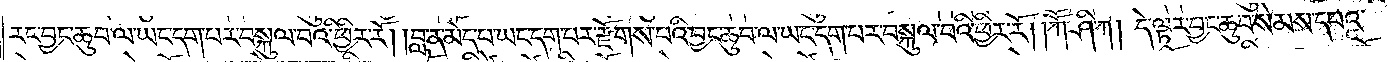རང་བྱང་ཆུབ་ལ་ཡང་དག་པར་བསྐུལ་བའི་ཕྱིར་རོ། །བླ་ན་མེད་པ་ཡང་དག་པར་རྫོགས་པའི་བྱང་ཆུབ་ལ་ཡང་དག་པར་བསྐུལ་བའི་ཕྱིར་རོ། །ཀཽ་ཤི་ཀ། དེ་ལྟར་བྱང་ཆུབ་སེམས་དཔའ་
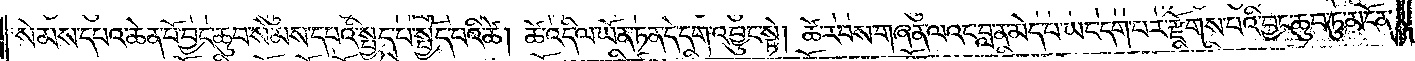སེམས་དཔའ་ཆེན་པོ་བྱང་ཆུབ་སེམས་དཔའི་སྤྱད་པ་སྤྱོད་པའི་ཚེ། ཚེ་འདི་ལ་ཡོན་ཏན་དེ་དག་འབྱུང་སྟེ། ཚེ་རབས་གཞན་ལའང་བླ་ན་མེད་པ་ཡང་དག་པར་རྫོགས་པའི་བྱང་ཆུབ་ཏུ་མངོན་
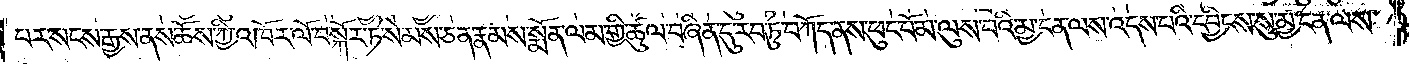པར་རྫོགས་པར་སངས་རྒྱས་ནས་ཆོས་ཀྱི་འཁོར་ལོ་བསྐོར་ཏེ་སེམས་ཅན་རྣམས་སྨོན་ལམ་གྱི་ཚུལ་བཞིན་དུ་རབ་ཏུ་བཀོད་ནས་ཕུང་པོ་མ་ལུས་པའི་མྱ་ངན་ལས་འདས་པའི་དབྱིངས་སུ་མྱ་ངན་ལས་
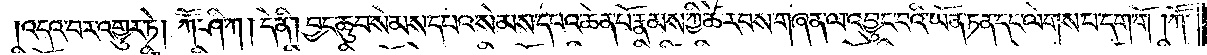འདའ་བར་འགྱུར་ཏེ། ཀཽ་ཤི་ཀ། དེ་ནི། བྱང་ཆུབ་སེམས་དཔའ་སེམས་དཔའ་ཆེན་པོ་རྣམས་ཀྱི་ཚེ་རབས་གཞན་ལ་འབྱུང་བའི་ཡོན་ཏན་དང་ལེགས་པ་དག་གོ །ཀཽ་
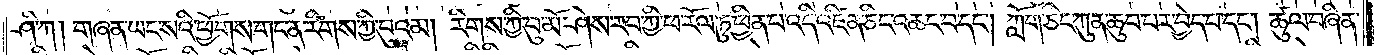ཤི་ཀ། གཞན་ཡང་སའི་ཕྱོགས་གང་ན་རིགས་ཀྱི་བུའམ། རིགས་ཀྱི་བུ་མོ་ཤེས་རབ་ཀྱི་ཕ་རོལ་ཏུ་ཕྱིན་པ་འདི་འཛིན་ཅིང་འཆང་བ་དང༌། ཀློག་ཅིང་ཀུན་ཆུབ་པར་བྱེད་པ་དང༌། ཚུལ་བཞིན་
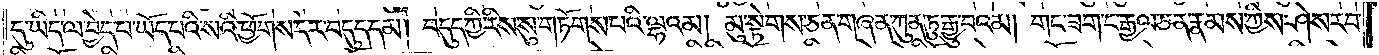དུ་ཡིད་ལ་བྱེད་པ་ཡོད་པའི་སའི་ཕྱོགས་དེར་བདུད་དམ། བདུད་ཀྱི་རིས་སུ་གཏོགས་པའི་ལྷའམ། མུ་སྟེགས་ཅན་གཞན་ཀུན་ཏུ་རྒྱུ་བའམ། གང་ཟག་པ་རྒྱལ་ཅན་རྣམས་ཀྱིས་ཤེས་རབ་
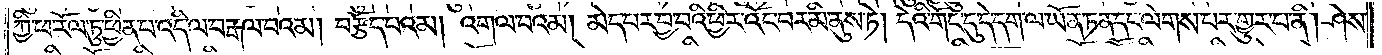ཀྱི་ཕ་རོལ་ཏུ་ཕྱིན་པ་འདི་ལ་བརྒལ་བའམ། བརྩད་པའམ། འགལ་བའམ། མེད་པར་བྱ་བའི་ཕྱིར་འོང་བར་མི་ནུས་ཏེ། དེའི་གོང་དུ་དེ་དག་ལ་ཡོན་ཏན་དང་ལེགས་པར་གྱུར་པ་ནི། ཤེས་
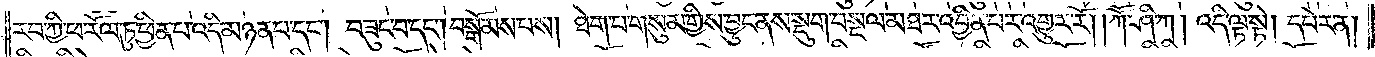རབ་ཀྱི་ཕ་རོལ་ཏུ་ཕྱིན་པ་འདི་མཉན་པ་དང༌། བཟུང་བ་དང༌། བསྒོམས་པས། ཐེག་པ་གསུམ་གྱིས་བྱུང་ནས་སྡུག་བསྔལ་མཐར་འབྱིན་པར་འགྱུར་རོ། །ཀཽ་ཤི་ཀ། འདི་ལྟ་སྟེ། དཔེར་ན།
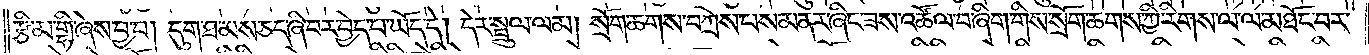རྩི་མ་གྷི་ཞེས་བྱ་བ། དུག་ཐམས་ཅད་ཞི་བར་བྱེད་པ་ཡོད་དེ། དེར་སྦྲུལ་ལམ། སྲོག་ཆགས་བཀྲེས་པས་མནར་ཞིང་ཟས་འཚོལ་བ་ཞིག་གིས་སྲོག་ཆགས་ཀྱི་རིགས་ལ་ལ་མཐོང་བར་
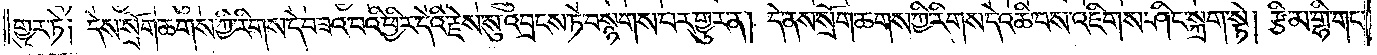གྱུར་ཏེ། དེས་སྲོག་ཆགས་ཀྱི་རིགས་དེ་བཟའ་བའི་ཕྱིར་དེའི་རྗེས་སུ་འབྲངས་ཏེ་བསྙགས་པར་གྱུར་ན། དེ་ནས་སྲོག་ཆགས་ཀྱི་རིགས་དེ་འཆི་བས་འཇིགས་ཤིང་སྐྲག་སྟེ། རྩི་མ་གྷི་གང་
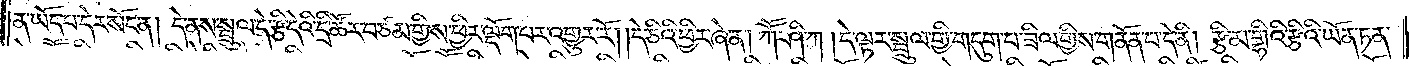ན་ཡོད་པ་དེར་སོང་ན། དེ་ནས་སྦྲུལ་དེ་རྩི་དེའི་དྲི་ཚོར་བ་ཙམ་གྱིས་ཕྱིར་ལྡོག་པར་འགྱུར་རོ། །དེ་ཅིའི་ཕྱིར་ཞེ་ན། ཀཽ་ཤི་ཀ། དེ་ལྟར་སྦྲུལ་གྱི་གདུག་པ་ཟིལ་གྱིས་གནོན་པ་དེ་ནི། རྩི་མ་གྷིའི་རྩིའི་ཡོན་ཏན་
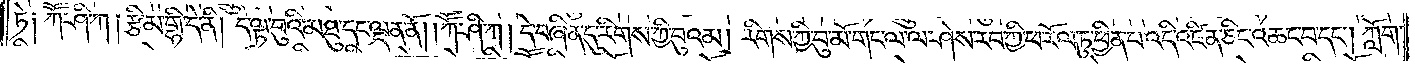ཏེ། ཀཽ་ཤི་ཀ། རྩི་མ་གྷི་དེ་ནི། དེ་ལྟ་བུའི་མཐུ་དང་ལྡན་ནོ། །ཀཽ་ཤི་ཀ། དེ་བཞིན་དུ་རིགས་ཀྱི་བུའམ། རིགས་ཀྱི་བུ་མོ་གང་ལ་ལ་ཤེས་རབ་ཀྱི་ཕ་རོལ་ཏུ་ཕྱིན་པ་འདི་འཛིན་ཅིང་འཆང་བ་དང༌། ཀློག་
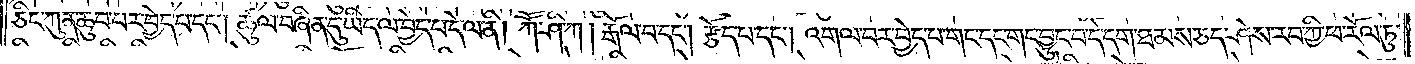ཅིང་ཀུན་ཆུབ་པར་བྱེད་པ་དང༌། ཚུལ་བཞིན་དུ་ཡིད་ལ་བྱེད་པ་དེ་ལ་ནི། ཀཽ་ཤི་ཀ། རྒོལ་བ་དང༌། རྩོད་པ་དང༌། འགལ་བར་བྱེད་པ་གང་དང་གང་བྱུང་བ་དེ་དག་ཐམས་ཅད་ཤེས་རབ་ཀྱི་ཕ་རོལ་ཏུ་
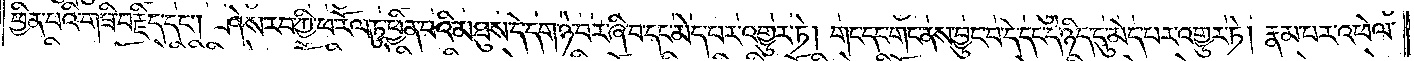ཕྱིན་པའི་གཟི་བརྗིད་དང༌། ཤེས་རབ་ཀྱི་ཕ་རོལ་ཏུ་ཕྱིན་པའི་མཐུས་དེ་དག་ཉེ་བར་ཞི་བ་དང་མེད་པར་འགྱུར་ཏེ། གང་དང་གང་ནས་བྱུང་བ་དེ་དང་དེ་ཉིད་དུ་མེད་པར་འགྱུར་ཏེ། རྣམ་པར་འཕེལ་
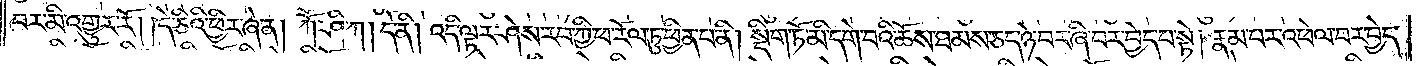བར་མི་འགྱུར་རོ། །དེ་ཅིའི་ཕྱིར་ཞེ་ན། ཀཽ་ཤི་ཀ། དེ་ནི། འདི་ལྟར་ཤེས་རབ་ཀྱི་ཕ་རོལ་ཏུ་ཕྱིན་པ་ནི། སྡིག་ཏོ་མི་དགེ་བའི་ཆོས་ཐམས་ཅད་ཉེ་བར་ཞི་བར་བྱེད་པ་སྟེ། རྣམ་པར་འཕེལ་བར་བྱེད་
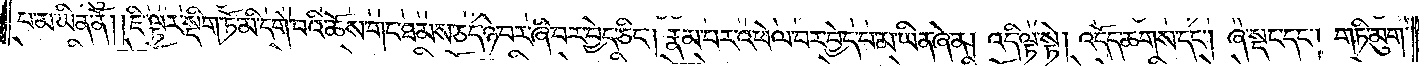པ་མ་ཡིན་ནོ། །ཇི་ལྟར་སྡིག་ཏོ་མི་དགེ་བའི་ཆོས་གང་ཐམས་ཅད་ཉེ་བར་ཞི་བར་བྱེད་ཅིང༌། རྣམ་པར་འཕེལ་བར་བྱེད་པ་མ་ཡིན་ཞེ་ན། འདི་ལྟ་སྟེ། འདོད་ཆགས་དང༌། ཞེ་སྡང་དང༌། གཏི་མུག་
